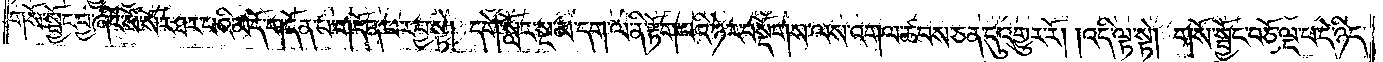གསོ་སྦྱོང་བྱ་ཞིང་སོ་སོར་ཐར་པའི་མདོ་གདོན་པ་གདོན་པར་བྱ་སྟེ། དགེ་སློང་སྔ་མ་དག་ལ་ནི་རྟོག་པའི་ཉེར་བསྡོགས་ལས་འགལ་ཚབས་ཅན་དུ་འགྱུར་རོ། །འདི་ལྟ་སྟེ། གསོ་སྦྱོང་བཅོ་ལྔ་པ་དེ་ཉིད་
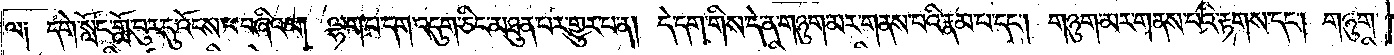ལ། དགེ་སློང་གློ་བུར་དུ་འོངས་པ་བཞིའམ། ལྷག་པ་དག་འདུག་ཅིང་མཐུན་པར་གྱུར་པ་ན། དེ་དག་གིས་དེ་ན་གཉུག་མར་གནས་པའི་རྣམ་པ་དང༌། གཉུག་མར་གནས་པའི་རྟགས་དང༌། གཉུག་
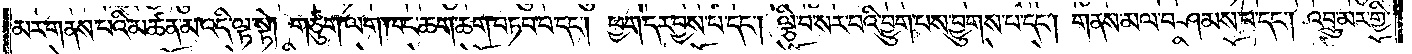མར་གནས་པའི་མཚན་མ་འདི་ལྟ་སྟེ། གཙུག་ལག་ཁང་ཆག་ཆག་བཏབ་པ་དང༌། ཕྱག་དར་བྱས་པ་དང༌། ལྕི་བ་སར་པའི་བྱུག་པས་བྱུགས་པ་དང༌། གནས་མལ་བཤམས་པ་དང༌། འབྲུ་མར་གྱི་
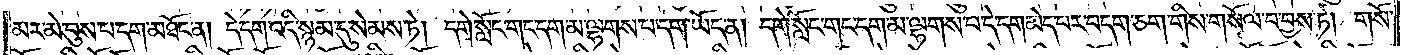མར་མེ་བུས་པ་དག་མཐོང་ན། དེ་དག་འདི་སྙམ་དུ་སེམས་ཏེ། དགེ་སློང་གང་དག་མ་ལྷགས་པ་དག་ཡོད་ན། དགེ་སློང་གང་དག་མ་ལྷགས་པ་དེ་དག་མེད་པར་བདག་ཅག་གིས་གསོལ་བ་བྱས་ཏེ། གསོ་
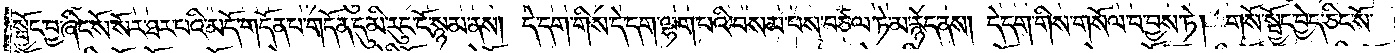སྦྱོང་བྱ་ཞིང་སོ་སོར་ཐར་པའི་མདོ་གདོན་པ་གདོན་དུ་མི་རུང་ངོ་སྙམ་ནས། དེ་དག་གིས་དེ་དག་ལྷག་པའི་བསམ་པས་བཙལ་ཏེ་མ་རྙེད་ནས། དེ་དག་གིས་གསོལ་བ་བྱས་ཏེ། གསོ་སྦྱོང་བྱེད་ཅིང་སོ་
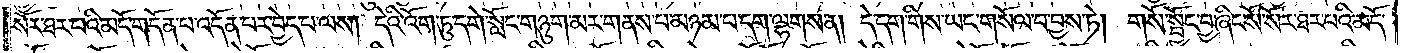སོར་ཐར་པའི་མདོ་གདོན་པ་འདོན་པར་བྱེད་པ་ལས། དེའི་འོག་ཏུ་དགེ་སློང་གཉུག་མར་གནས་པ་མཉམ་པ་དག་ལྷགས་ན། དེ་དག་གིས་ཡང་གསོལ་བ་བྱས་ཏེ། གསོ་སྦྱོང་བྱ་ཞིང་སོ་སོར་ཐར་པའི་མདོ་
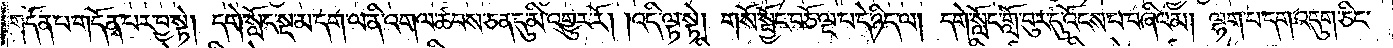གདོན་པ་གདོན་པར་བྱ་སྟེ། དགེ་སློང་སྔ་མ་དག་ལ་ནི་འགལ་ཚབས་ཅན་དུ་མི་འགྱུར་རོ། །འདི་ལྟ་སྟེ། གསོ་སྦྱོང་བཅོ་ལྔ་པ་དེ་ཉིད་ལ། དགེ་སློང་གློ་བུར་དུ་འོངས་པ་བཞིའམ། ལྷག་པ་དག་འདུག་ཅིང་
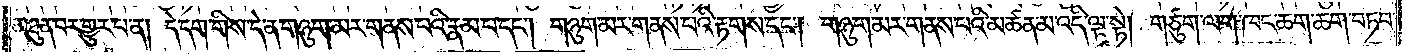མཐུན་པར་གྱུར་པ་ན། དེ་དག་གིས་དེ་ན་གཉུག་མར་གནས་པའི་རྣམ་པ་དང༌། གཉུག་མར་གནས་པའི་རྟགས་དང༌། གཉུག་མར་གནས་པའི་མཚན་མ་འདི་ལྟ་སྟེ། གཙུག་ལག་ཁང་ཆག་ཆག་བཏབ་
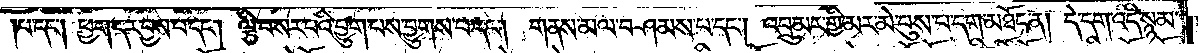པ་དང༌། ཕྱག་དར་བྱས་པ་དང༌། ལྕི་བ་སར་པའི་བྱུག་པས་བྱུགས་པ་དང༌། གནས་མལ་བཤམས་པ་དང༌། འབྲུ་མར་གྱི་མར་མེ་བུས་པ་དག་མཐོང་ན། དེ་དག་འདི་སྙམ་
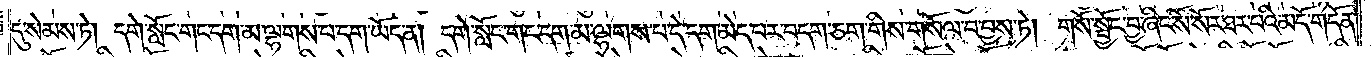དུ་སེམས་ཏེ། དགེ་སློང་གང་དག་མ་ལྷགས་པ་དག་ཡོད་ན། དགེ་སློང་གང་དག་མ་ལྷགས་པ་དེ་དག་མེད་པར་བདག་ཅག་གིས་གསོལ་བ་བྱས་ཏེ། གསོ་སྦྱོང་བྱ་ཞིང་སོ་སོར་ཐར་པའི་མདོ་གདོན་
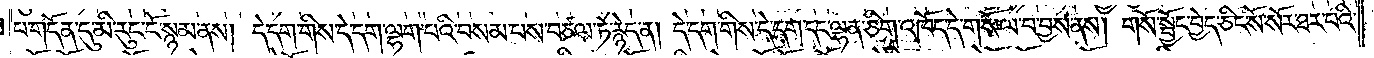པ་གདོན་དུ་མི་རུང་ངོ་སྙམ་ནས། དེ་དག་གིས་དེ་དག་ལྷག་པའི་བསམ་པས་བཙལ་ཏེ་རྙེད་ན། དེ་དག་གིས་དེ་དག་དང་ལྷན་ཅིག་འཁོད་དེ་གསོལ་བ་བྱས་ནས། གསོ་སྦྱོང་བྱེད་ཅིང་སོ་སོར་ཐར་པའི་
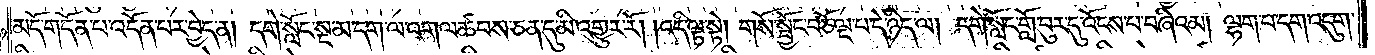མདོ་གདོན་པ་འདོན་པར་བྱེད་ན། དགེ་སློང་སྔ་མ་དག་ལ་འགལ་ཚབས་ཅན་དུ་མི་འགྱུར་རོ། །འདི་ལྟ་སྟེ། གསོ་སྦྱོང་བཅོ་ལྔ་པ་དེ་ཉིད་ལ། དགེ་སློང་གློ་བུར་དུ་འོངས་པ་བཞིའམ། ལྷག་པ་དག་འདུག་
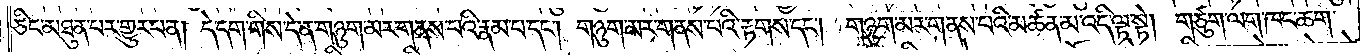ཅིང་མཐུན་པར་གྱུར་པ་ན། དེ་དག་གིས་དེ་ན་གཉུག་མར་གནས་པའི་རྣམ་པ་དང༌། གཉུག་མར་གནས་པའི་རྟགས་དང༌། གཉུག་མར་གནས་པའི་མཚན་མ་འདི་ལྟ་སྟེ། གཙུག་ལག་ཁང་ཆག་
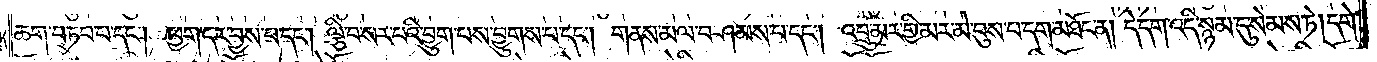ཆག་བཏབ་པ་དང༌། ཕྱག་དར་བྱས་པ་དང༌། ལྕི་བ་སར་པའི་བྱུག་པས་བྱུགས་པ་དང༌། གནས་མལ་བཤམས་པ་དང༌། འབྲུ་མར་གྱི་མར་མེ་བུས་པ་དག་མཐོང་ན། དེ་དག་འདི་སྙམ་དུ་སེམས་ཏེ། དགེ་
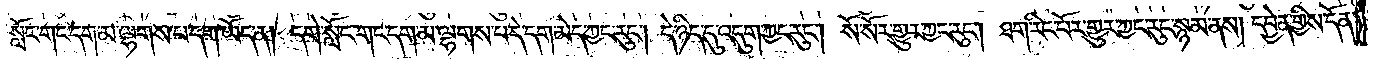སློང་གང་དག་མ་ལྷགས་པ་དག་ཡོད་ན། དགེ་སློང་གང་དག་མ་ལྷགས་པ་དེ་དག་མེད་ཀྱང་རུང༌། དེ་ཉིད་དུ་འདུག་ཀྱང་རུང༌། སོ་སོར་གྱུར་ཀྱང་རུང༌། ཐག་རིང་པོར་གྱུར་ཀྱང་རུང་སྙམ་ནས། དབྱེན་གྱིས་དོན་
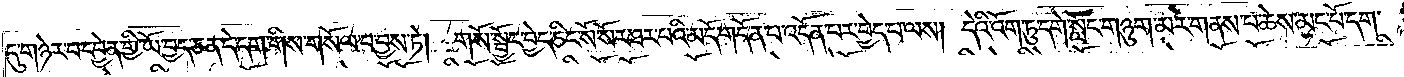དུ་གཉེར་བ་དབྱེན་གྱི་ཡོ་བྱད་ཅན་དེ་དག་གིས་གསོལ་བ་བྱས་ཏེ། གསོ་སྦྱོང་བྱེད་ཅིང་སོ་སོར་ཐར་པའི་མདོ་གདོན་པ་འདོན་པར་བྱེད་པ་ལས། དེའི་འོག་ཏུ་དགེ་སློང་གཉུག་མར་གནས་པ་ཆེས་མང་པོ་དག་
